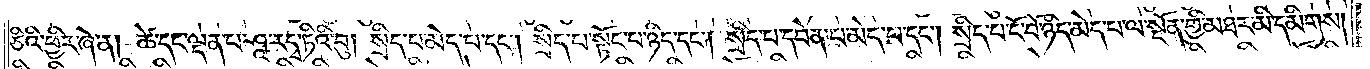ཅིའི་ཕྱིར་ཞེ་ན། ཚེ་དང་ལྡན་པ་ཤཱ་རདྭ་ཏིའི་བུ། སྲིད་པ་མེད་པ་དང༌། སྲིད་པ་སྟོང་པ་ཉིད་དང༌། སྲིད་པ་དབེན་པ་དང༌། སྲིད་པ་ངོ་བོ་ཉིད་མེད་པ་ལ་སྔོན་གྱི་མཐའ་མི་དམིགས།
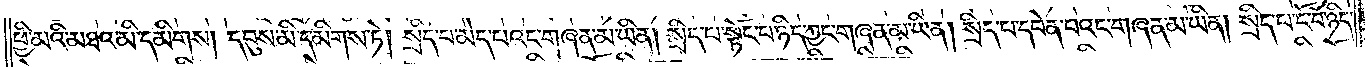ཕྱི་མའི་མཐའ་མི་དམིགས། དབུས་མི་དམིགས་ཏེ། སྲིད་པ་མེད་པའང་གཞན་མ་ཡིན། སྲིད་པ་སྟོང་པ་ཉིད་ཀྱང་གཞན་མ་ཡིན། སྲིད་པ་དབེན་པའང་གཞན་མ་ཡིན། སྲིད་པ་ངོ་བོ་ཉིད་
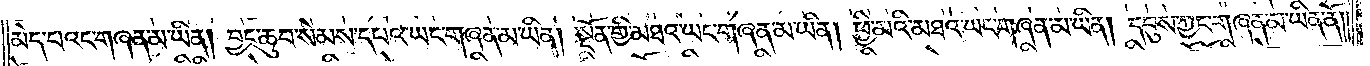མེད་པའང་གཞན་མ་ཡིན། བྱང་ཆུབ་སེམས་དཔའ་ཡང་གཞན་མ་ཡིན། སྔོན་གྱི་མཐའ་ཡང་གཞན་མ་ཡིན། ཕྱི་མའི་མཐའ་ཡང་གཞན་མ་ཡིན། དབུས་ཀྱང་གཞན་མ་ཡིན་ནོ། །
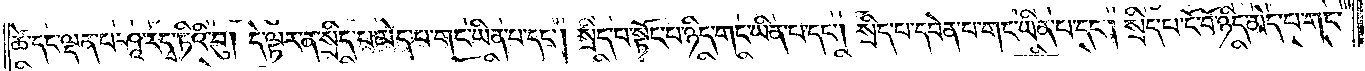ཚེ་དང་ལྡན་པ་ཤཱ་རདྭ་ཏིའི་བུ། དེ་ལྟར་ན་སྲིད་པ་མེད་པ་གང་ཡིན་པ་དང༌། སྲིད་པ་སྟོང་པ་ཉིད་གང་ཡིན་པ་དང༌། སྲིད་པ་དབེན་པ་གང་ཡིན་པ་དང༌། སྲིད་པ་ངོ་བོ་ཉིད་མེད་པ་གང་
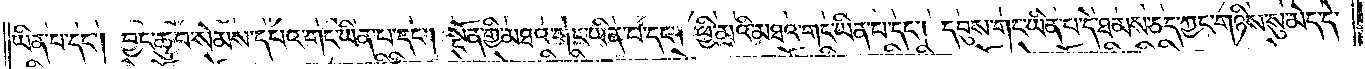ཡིན་པ་དང༌། བྱང་ཆུབ་སེམས་དཔའ་གང་ཡིན་པ་དང༌། སྔོན་གྱི་མཐའ་གང་ཡིན་པ་དང༌། ཕྱི་མའི་མཐའ་གང་ཡིན་པ་དང༌། དབུས་གང་ཡིན་པ་དེ་ཐམས་ཅད་ཀྱང་གཉིས་སུ་མེད་དེ་
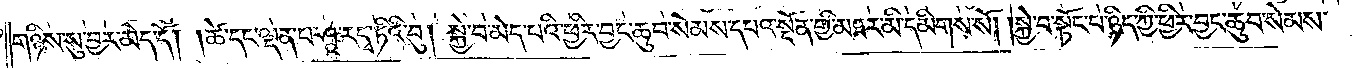གཉིས་སུ་བྱར་མེད་དོ། །ཚེ་དང་ལྡན་པ་ཤཱ་རདྭ་ཏིའི་བུ། སྐྱེ་བ་མེད་པའི་ཕྱིར་བྱང་ཆུབ་སེམས་དཔའ་སྔོན་གྱི་མཐར་མི་དམིགས་སོ། །སྐྱེ་བ་སྟོང་པ་ཉིད་ཀྱི་ཕྱིར་བྱང་ཆུབ་སེམས་
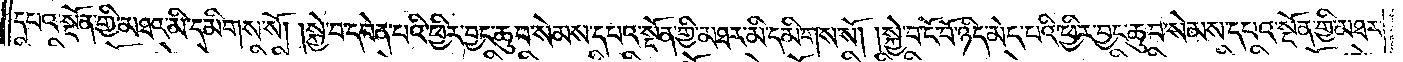དཔའ་སྔོན་གྱི་མཐར་མི་དམིགས་སོ། །སྐྱེ་བ་དབེན་པའི་ཕྱིར་བྱང་ཆུབ་སེམས་དཔའ་སྔོན་གྱི་མཐར་མི་དམིགས་སོ། །སྐྱེ་བ་ངོ་བོ་ཉིད་མེད་པའི་ཕྱིར་བྱང་ཆུབ་སེམས་དཔའ་སྔོན་གྱི་མཐར་
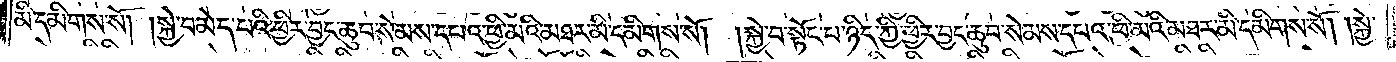མི་དམིགས་སོ། །སྐྱེ་བ་མེད་པའི་ཕྱིར་བྱང་ཆུབ་སེམས་དཔའ་ཕྱི་མའི་མཐར་མི་དམིགས་སོ། །སྐྱེ་བ་སྟོང་པ་ཉིད་ཀྱི་ཕྱིར་བྱང་ཆུབ་སེམས་དཔའ་ཕྱི་མའི་མཐར་མི་དམིགས་སོ། །སྐྱེ་
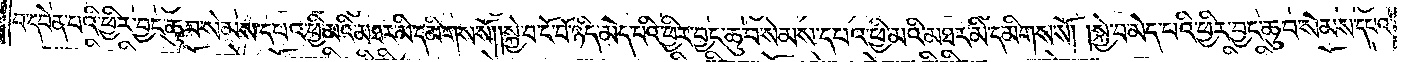བ་དབེན་པའི་ཕྱིར་བྱང་ཆུབ་སེམས་དཔའ་ཕྱི་མའི་མཐར་མི་དམིགས་སོ། །སྐྱེ་བ་ངོ་བོ་ཉིད་མེད་པའི་ཕྱིར་བྱང་ཆུབ་སེམས་དཔའ་ཕྱི་མའི་མཐར་མི་དམིགས་སོ། །སྐྱེ་བ་མེད་པའི་ཕྱིར་བྱང་ཆུབ་སེམས་དཔའ་
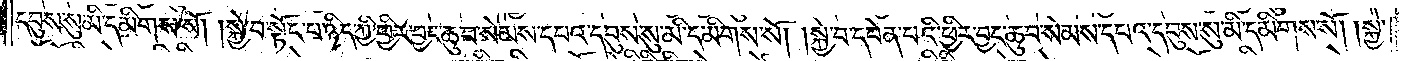དབུས་སུ་མི་དམིགས་སོ། །སྐྱེ་བ་སྟོང་པ་ཉིད་ཀྱི་ཕྱིར་བྱང་ཆུབ་སེམས་དཔའ་དབུས་སུ་མི་དམིགས་སོ། །སྐྱེ་བ་དབེན་པའི་ཕྱིར་བྱང་ཆུབ་སེམས་དཔའ་དབུས་སུ་མི་དམིགས་སོ། །སྐྱེ་
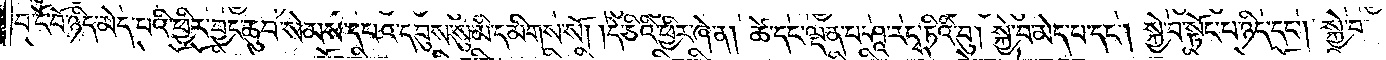བ་ངོ་བོ་ཉིད་མེད་པའི་ཕྱིར་བྱང་ཆུབ་སེམས་དཔའ་དབུས་སུ་མི་དམིགས་སོ། །དེ་ཅིའི་ཕྱིར་ཞེ་ན། ཚེ་དང་ལྡན་པ་ཤཱ་རདྭ་ཏིའི་བུ། སྐྱེ་བ་མེད་པ་དང༌། སྐྱེ་བ་སྟོང་པ་ཉིད་དང༌། སྐྱེ་བ་
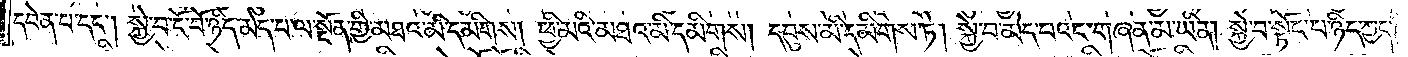དབེན་པ་དང༌། སྐྱེ་བ་ངོ་བོ་ཉིད་མེད་པ་ལ་སྔོན་གྱི་མཐའ་མི་དམིགས། ཕྱི་མའི་མཐའ་མི་དམིགས། དབུས་མི་དམིགས་ཏེ། སྐྱེ་བ་མེད་པའང་གཞན་མ་ཡིན། སྐྱེ་བ་སྟོང་པ་ཉིད་ཀྱང་
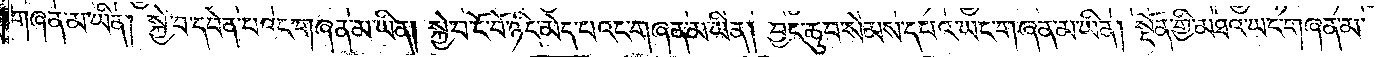གཞན་མ་ཡིན། སྐྱེ་བ་དབེན་པའང་གཞན་མ་ཡིན། སྐྱེ་བ་ངོ་བོ་ཉིད་མེད་པའང་གཞན་མ་ཡིན། བྱང་ཆུབ་སེམས་དཔའ་ཡང་གཞན་མ་ཡིན། སྔོན་གྱི་མཐའ་ཡང་གཞན་མ་
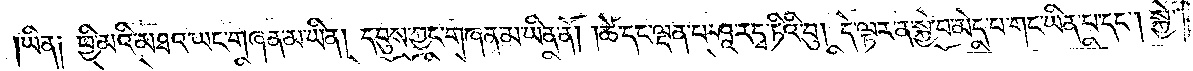ཡིན༑ ཕྱི་མའི་མཐའ་ཡང་གཞན་མ་ཡིན། དབུས་ཀྱང་གཞན་མ་ཡིན་ནོ། །ཚེ་དང་ལྡན་པ་ཤཱ་རདྭ་ཏིའི་བུ། དེ་ལྟར་ན་སྐྱེ་བ་མེད་པ་གང་ཡིན་པ་དང༌། སྐྱེ་
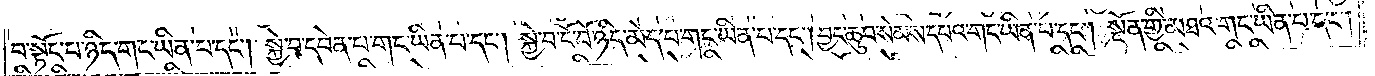བ་སྟོང་པ་ཉིད་གང་ཡིན་པ་དང༌། སྐྱེ་བ་དབེན་པ་གང་ཡིན་པ་དང༌། སྐྱེ་བ་ངོ་བོ་ཉིད་མེད་པ་གང་ཡིན་པ་དང༌། བྱང་ཆུབ་སེམས་དཔའ་གང་ཡིན་པ་དང༌། སྔོན་གྱི་མཐའ་གང་ཡིན་པ་དང༌།
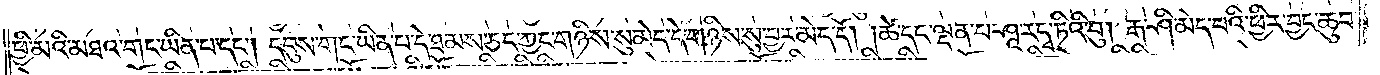ཕྱི་མའི་མཐའ་གང་ཡིན་པ་དང༌། དབུས་གང་ཡིན་པ་དེ་ཐམས་ཅད་ཀྱང་གཉིས་སུ་མེད་དེ་གཉིས་སུ་བྱར་མེད་དོ། །ཚེ་དང་ལྡན་པ་ཤཱ་རདྭ་ཏིའི་བུ། །རྒ་ཤི་མེད་པའི་ཕྱིར་བྱང་ཆུབ་
